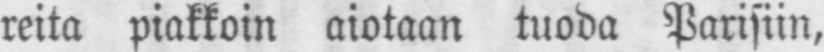reita piakkoin aiotaan tuoda Parisin,
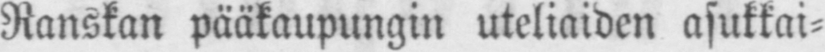Ranskan pääkaupungin uteliaiden asukkai-
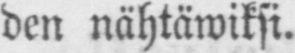den nähtäwiksi.
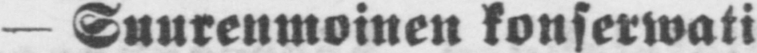— Suurenmoinen konserwati-
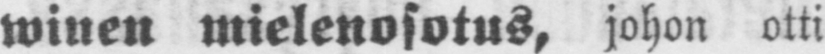winen mielenosotus, johon otti
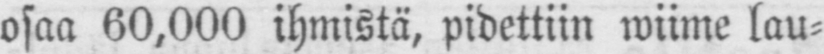osaa 60,000 ihmistä, pidettiin wiime lau-
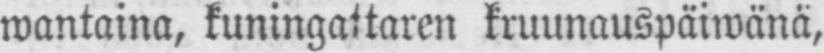wantaina, kuningattaren kruunauspäiwänä,
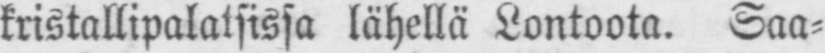kristallipalatsissa lähellä Lontoota. Saa-
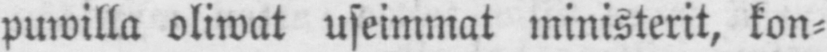puwilla oliwat useimmat ministerit, kon-
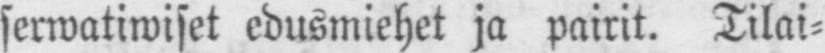serwatiwiset edusmiehet ja pairit. Tilai-
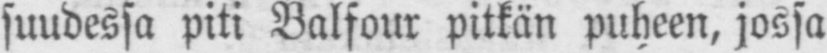suudessa piti Balfour pitkän puheen, jossa
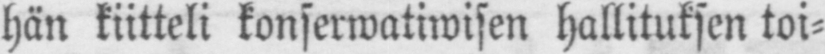hän kiitteli konserwatiwisen hallituksen toi-
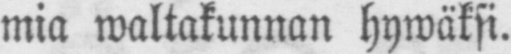mia waltakunnan hywäksi.
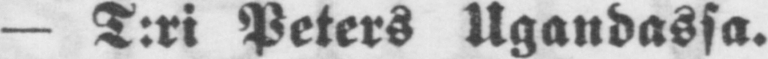— T:ri Peters Ugandassa.
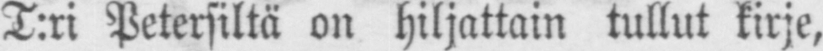T:ri Petersiltä on hiljattain tullut kirje,
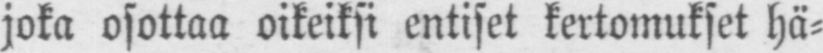joka osottaa oikeiksi entiset kertomukset hä-
